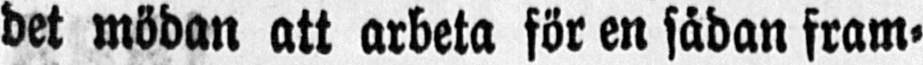det mödan att arbeta för en sådan fram-
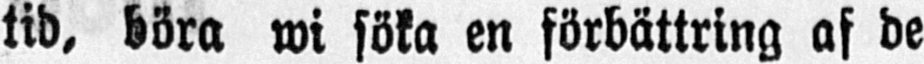tid, böra wi söka en förbättring af de
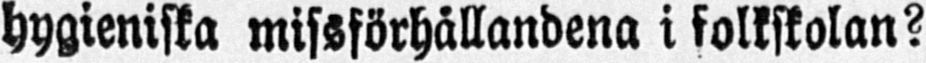hygieniska missförhållandena i folkskolan?
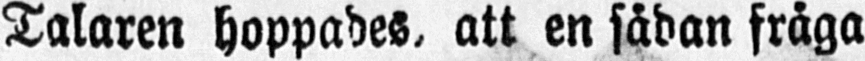Talaren hoppades, att en sådan fråga
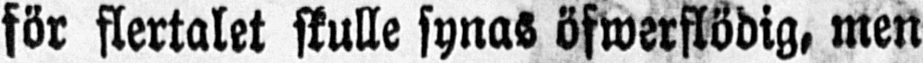för flertalet skulle synas öfwerflödig, men
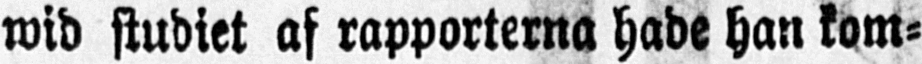wid studiet af rapporterna hade han kom-
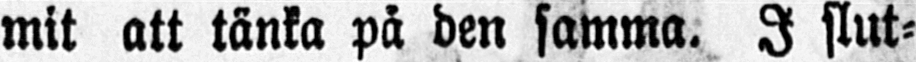mit att tänka på den samma. I slut-
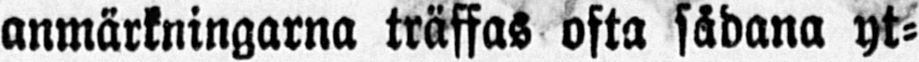anmärkningarna träffas ofta sådana yt-
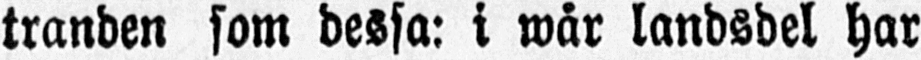tranden som dessa: i wår landsdel har
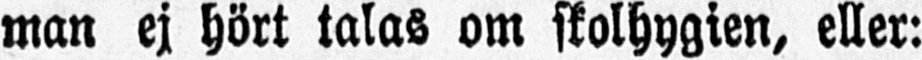man ej hört talas om skolhygien, eller:
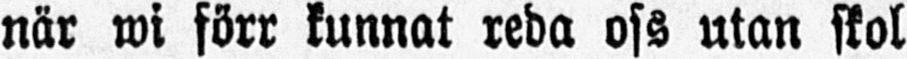när wi förr kunnat reda oss utan skol-
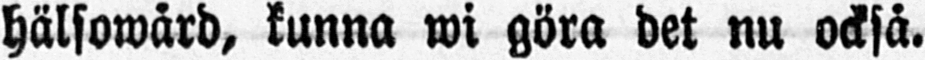hälsowård, kunna wi göra det nu också.
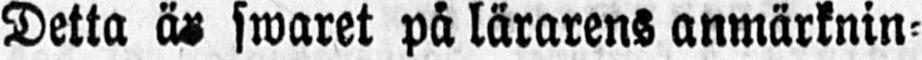Detta är swaret på lärarens anmärknin-
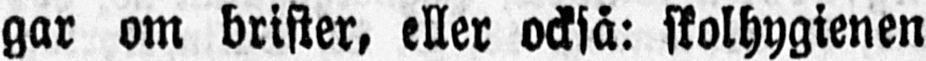gar om brister, eller också: skolhygienen
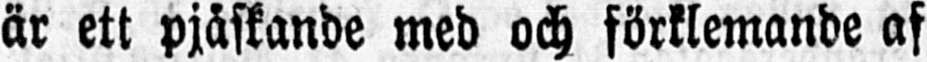är ett pjåskande med och förklemande af
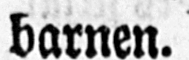barnen.
